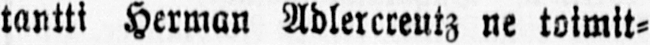tantti Herman Adlercreutz ne toimit-
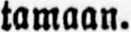tamaan.
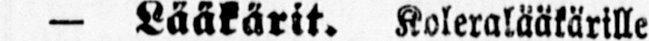— Lääkärit. Koleralääkärille
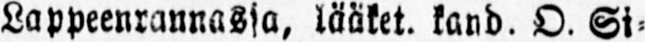Lappeenrannassa, lääket. kand. O. Si-
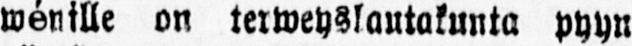ménille on terweyslautakunta pyyn
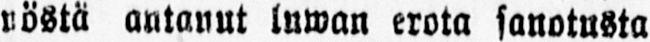röstä antanut luwan erota sanotusta
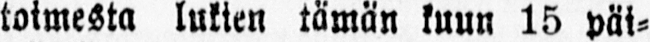toimesta lukien tämän kuun 15 päi-
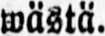wästä.
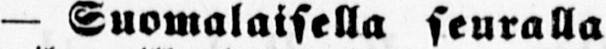— Suomalaisella seuralla
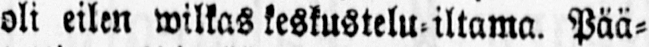oli eilen wilkas keskustelu-iltama. Pää-
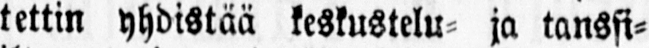tettin yhdistää keskustelu- ja tanssi-
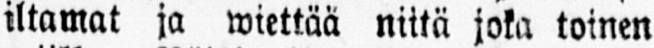iltamat ja wiettää niitä joka toinen
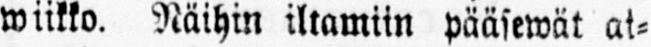wiikko. Näihin iltamiin pääsewät at-
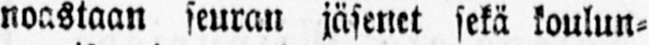noastaan seuran jäsenet sekä koulun-
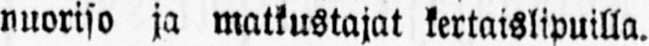nuoriso ja matkustajat kertaislipuilla.
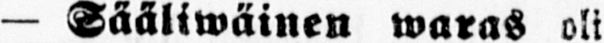— Sääliwäinen waras oli
